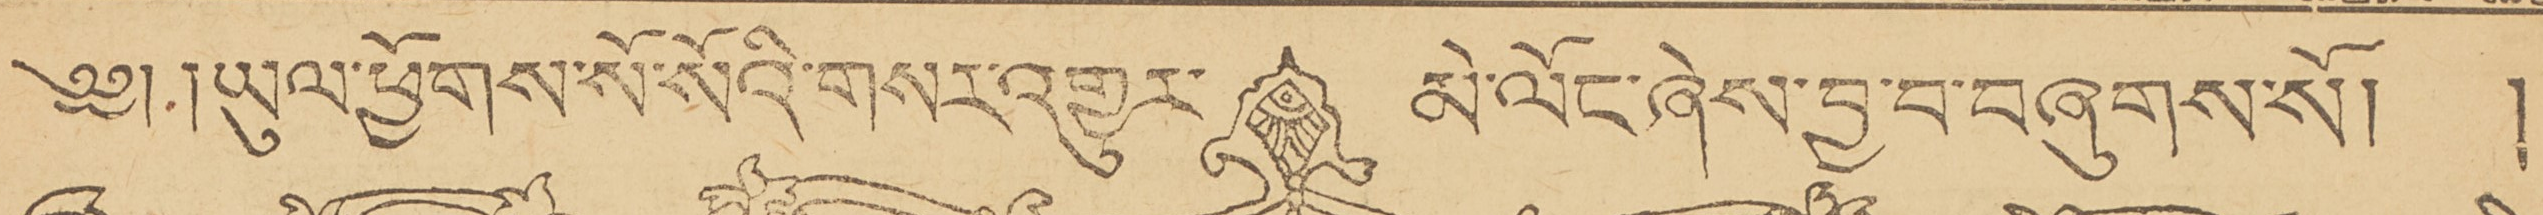༄༅། །ཡུལ་ཕྱོགས་སོ་སོའི་གསར་འགྱུར་ མེ་ལོང་ཞེས་བྱ་བ་བཞུགས་སོ། །
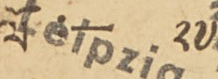ལོ་ :— ༢༧
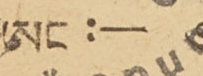ཨང :— ༦
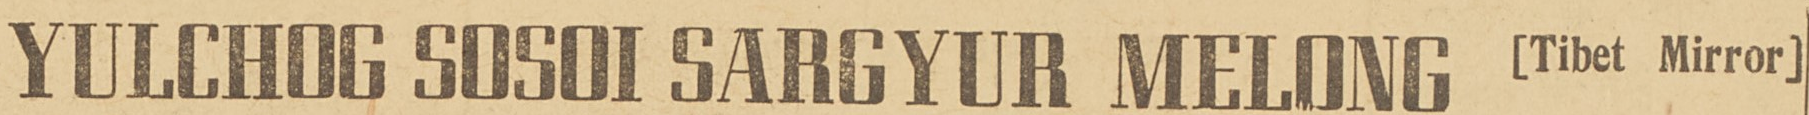YULCHOG SOSOI SARGYUR MELONG [Tibet Mirror]
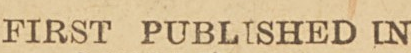FIRST PUBLISHED IN
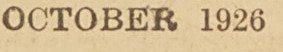OCTOBER 1926
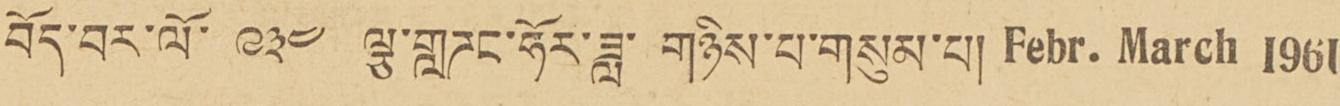བོད་བར་ལོ་ ༩༣༤ ལྕ་གླཌང་ཧོར་ཟླ་ གཉིས་པ་གསུམ་པ། Febr. March 1961
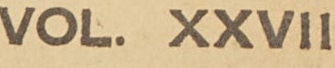Vol. XXVII
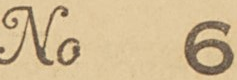No 6
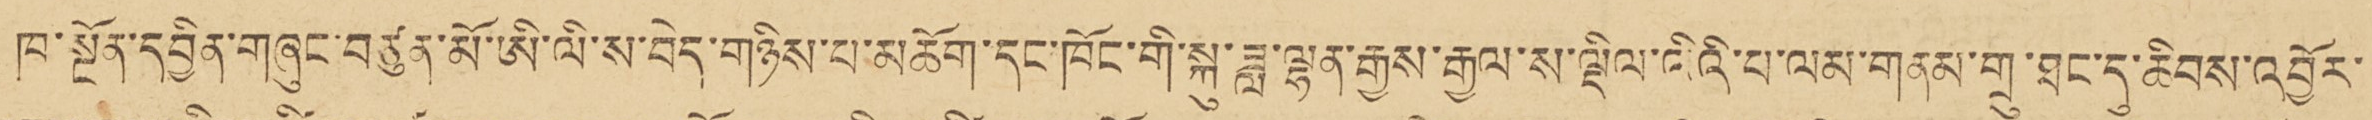ཁ་སྔོན་དབྱིན་གཞུང་བཙུན་མོ་ཨི་ལི་ས་བེད་གཉིས་པ་མཆོག་དང་ཁོང་གི་སྐུ་ཟླ་ལྷན་རྒྱས་རྒྱལ་ས་ལྡིལ་ལིའི་པ་ལམ་གནམ་གྲུ་ཐང་དུ་ཆིབས་འབྱོར་
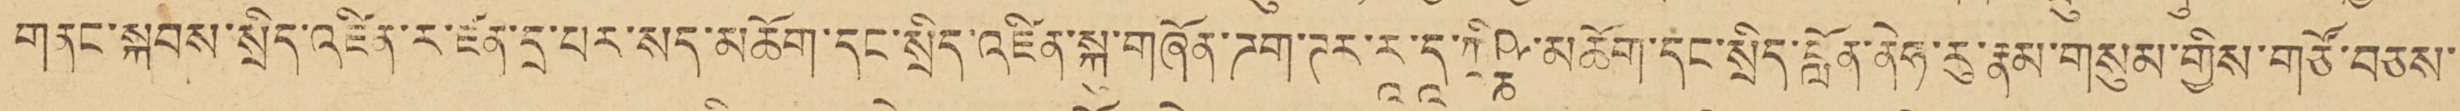གནང་སྐབས་སྲིད་འཛིན་ར་ཛན་དྲ་པར་སད་མཆོག་དང་སྲིད་འཛིན་གཞོན་ཌག་ཊར་རཱ་དཱ་ཀྲིཥྞ་མཆོག་དང་སྲིད་བློན་ནེཧ་རུ་རྣམ་གསུམ་གྱིས་གཙོ་བཅས་
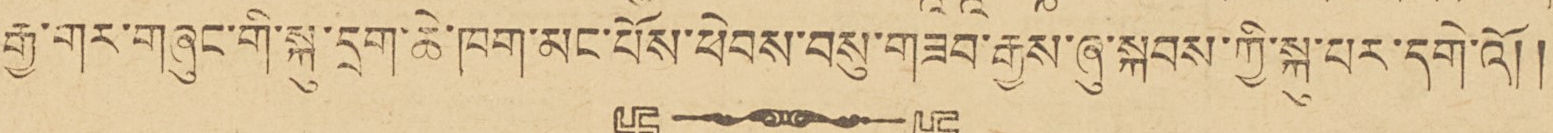རྒྱ་གར་གཞུང་གི་སྐུ་དྲག་ཆེ་ཁག་མང་པོས་ཕེབས་བསུ་གཟབ་རྒྱས་ཞུ་སྐབས་ཀྱི་སྐུ་པར་དགེ་འོ།།
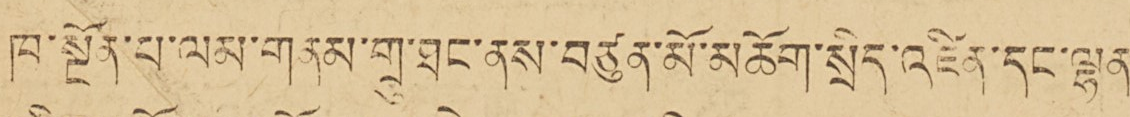ཁ་སྔོན་པ་ལམ་གནམ་གྲུ་ཐང་ནས་བཙུན་མོ་མཆོག་སྲིད་འཛིན་དང་ལྷན་
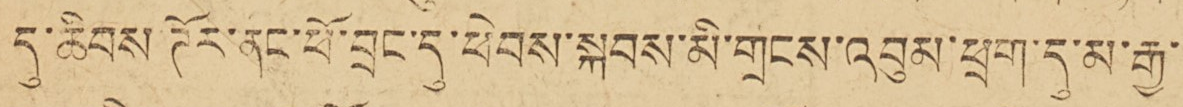དུ་ཆིབས་ཊོར་ནང་ཕོ་བྲང་དུ་ཕེབས་སྐབས་མི་གྲངས་འབུམ་ཕྲག་དུ་མ་རྒྱ་
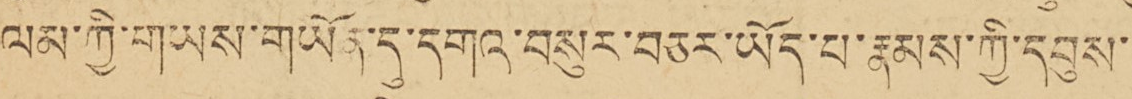ལམ་ཀྱི་གཡས་གཡོན་དུ་དགའ་བསུར་བཅར་ཡོད་པ་རྣམས་ཀྱི་དབུས་
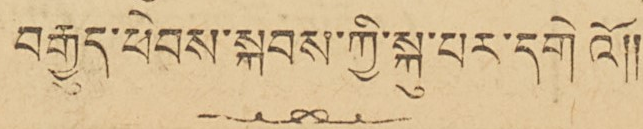བརྒྱུད་ཕེབས་སྐབས་ཀྱི་སྐུ་པར་དགེའོ།།
